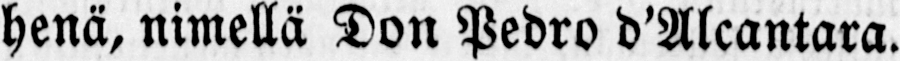henä, nimellä Don Pedro d’Alcantara.
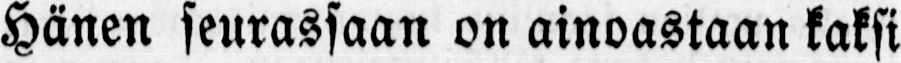Hänen seurassaan on ainoastaan kaksi
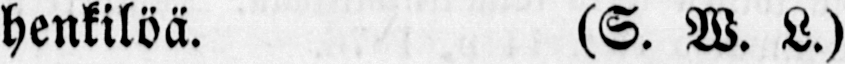henkilöä. (S. W. L.)
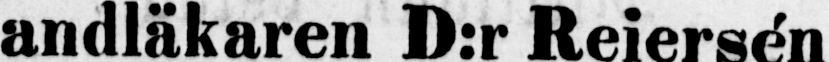Tandläkaren D.r Reiersén
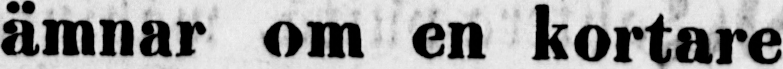ämnar om en kortare
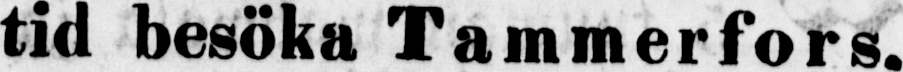tid besöka Tammerfors.
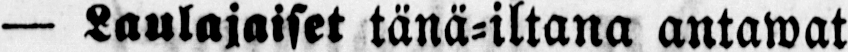— Laulajaiset tänä-iltana antawat
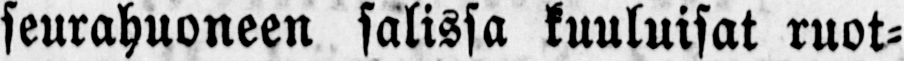seurahuoneen salissa kuuluisat ruot-
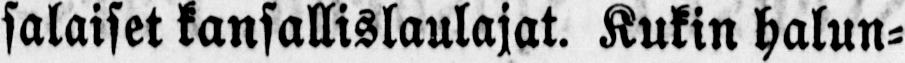salaiset kansallislaulajat. Kukin halun-
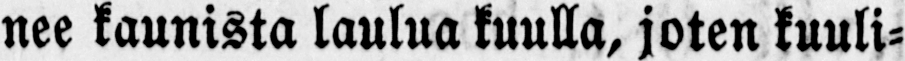nee kaunista laulua kuulla, joten kuuli-
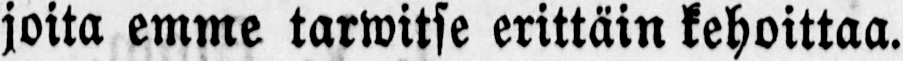joita emme tarwitse erittäin kehoittaa.
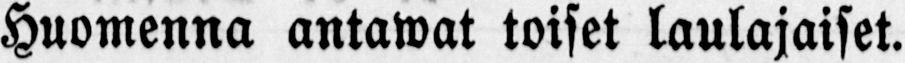Huomenna antawat toiset laulajaiset.
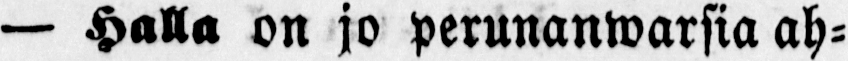— Halla on jo perunanwarsia ah-
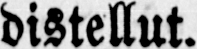distellut.
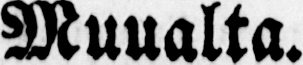Muualta.
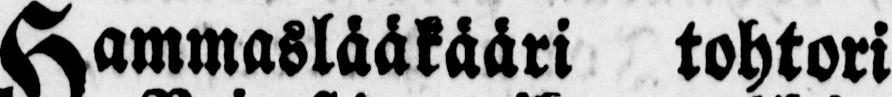Hammaslääkääri tohtori
